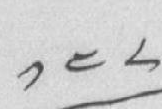༡༤༨
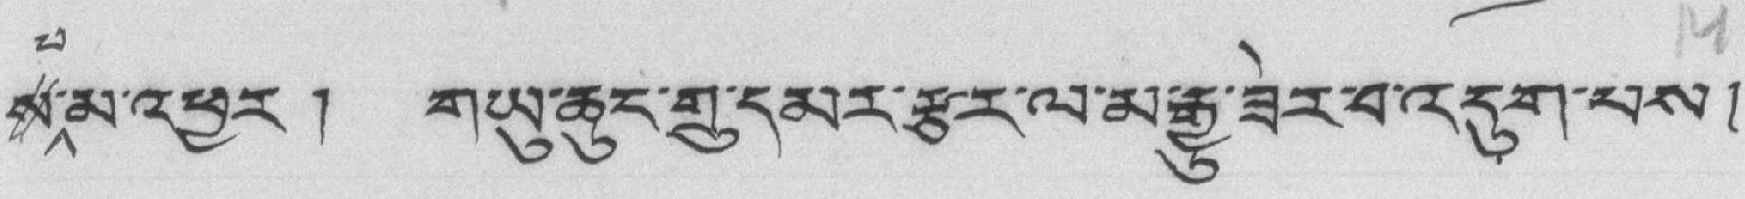སཔ་མ་འཕྱར། གཡུ་ཆུང་གྲུ་དམར་རྩར་ལ་མ་རྒྱུ་ཟེར་བ་འདུག་པས།
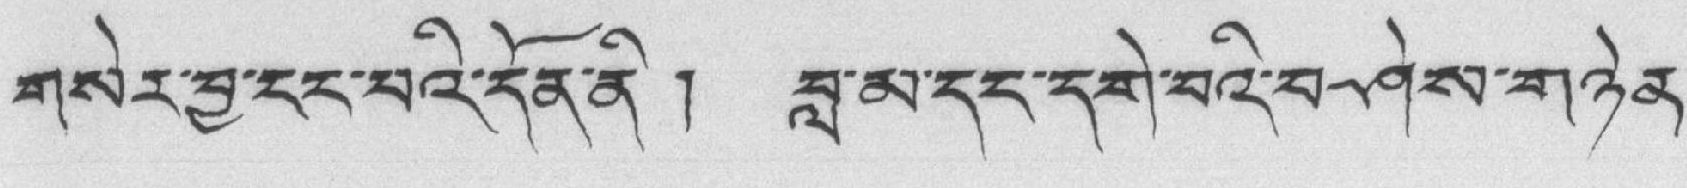གསེར་བྱ་ངང་པའི་དོན་ནི ། བླ་མ་དང་དགེ་བའི་བཤེས་གཉེན་
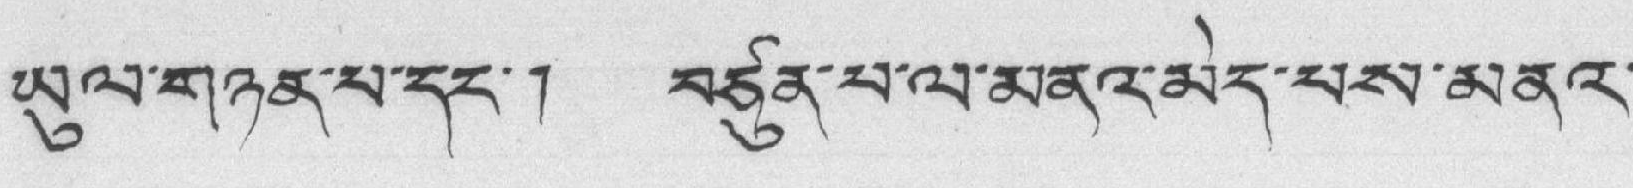ཡུལ་གཉན་པ་དང་། བཙུན་པ་ལ་མནའ་མེད་པས་མནའ་
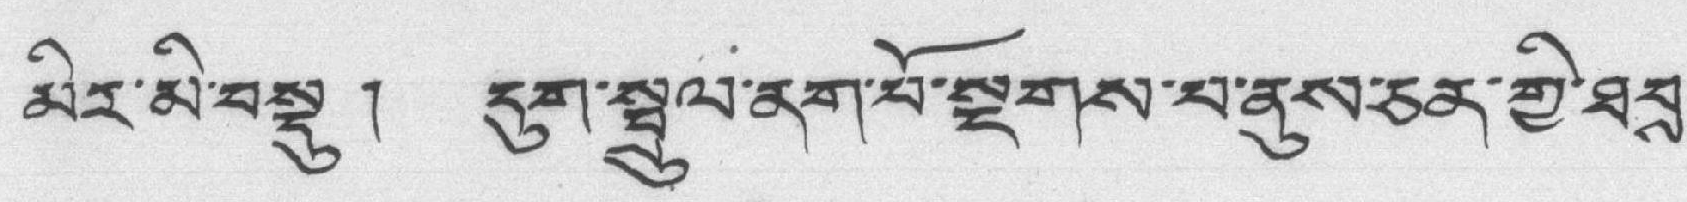མིར་མི་བསྡུ ། དུག་སྦྲུལ་ནག་པོ་སྔགས་པ་ནུས་ཅན་གྱི་ཐབས་
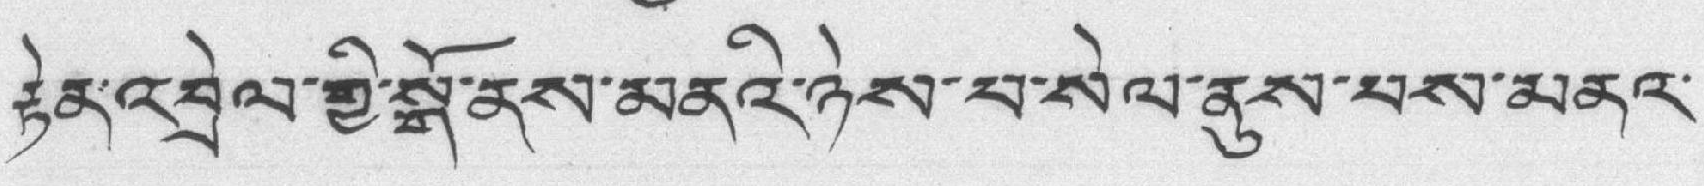རྟེན་འབྲེལ་གྱི་སྒོ་ནས་མནའི་ཉེས་པ་སེལ་ནུས་པས་མནའ་
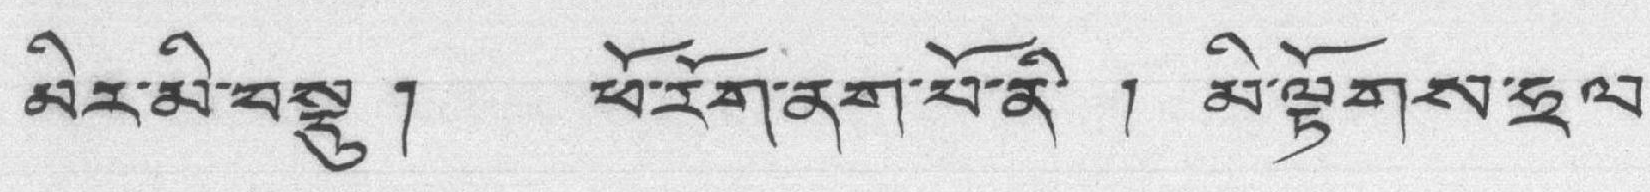མིར་མི་བསྡུ ། ཕོ་རོག་ནག་པོ་ནི་ ། མི་ལྟོགས་ཧྲལ་
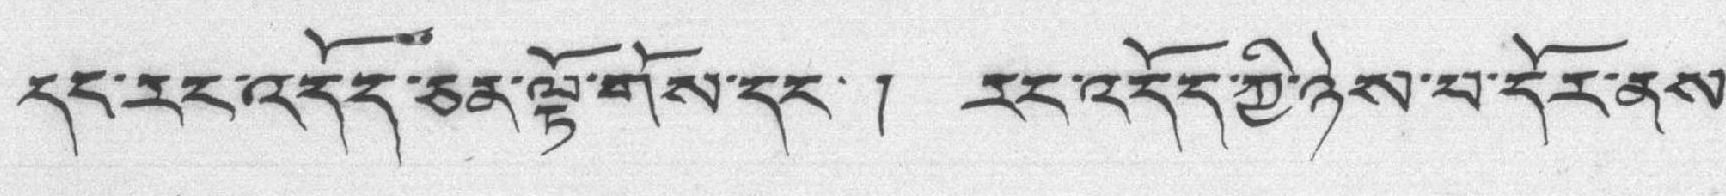དང་རང་འདོད་ཅན་ལྟོ་གོས་དང་། རང་འདོད་ཀྱི་ཉེས་པ་དོར་ནས་
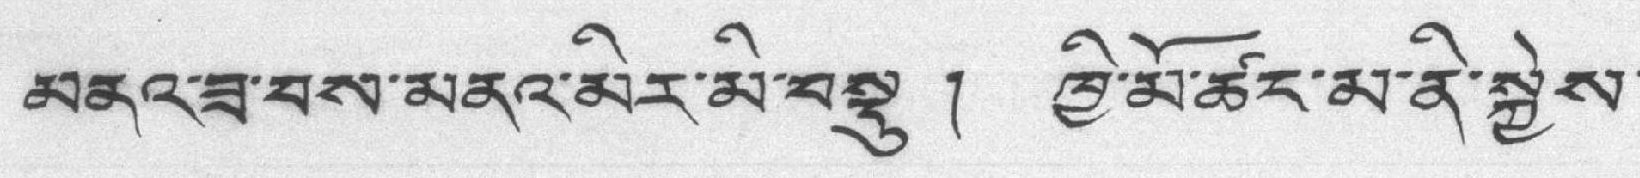མནའ་ཟ་བས་མནའ་མིར་མི་བསྡུ ། ཁྱི་མོ་ཚང་མ་ནི་སྐྱེས་
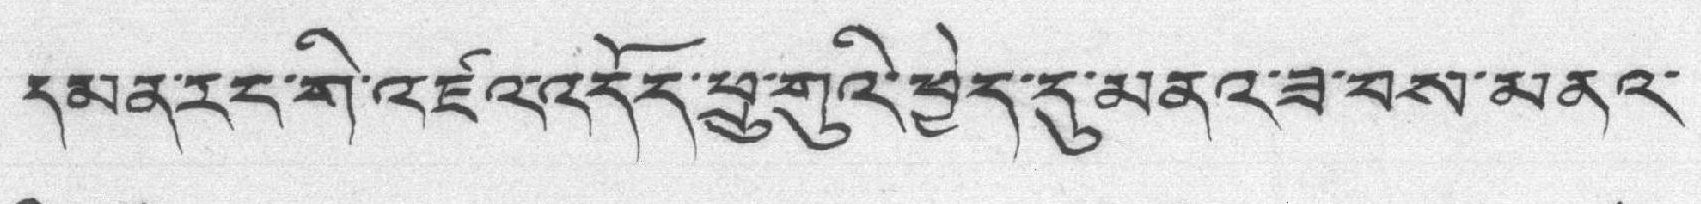དམན་རང་གི་འཛའ་འདོད་ཕྲུ་གུའི་ཕྱེད་དུ་མནའ་ཟ་བས་མནའ་
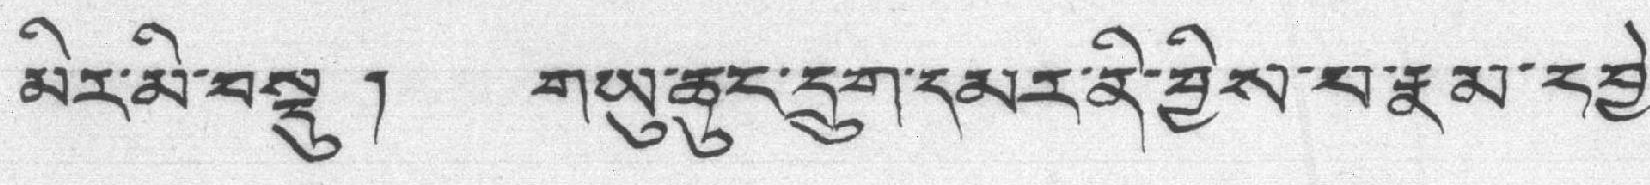མིར་མི་བསྡུ ། གཡུ་ཆུང་དྲུག་དམར་ནི་བྱིས་པ་རྣམ་དབྱེ་
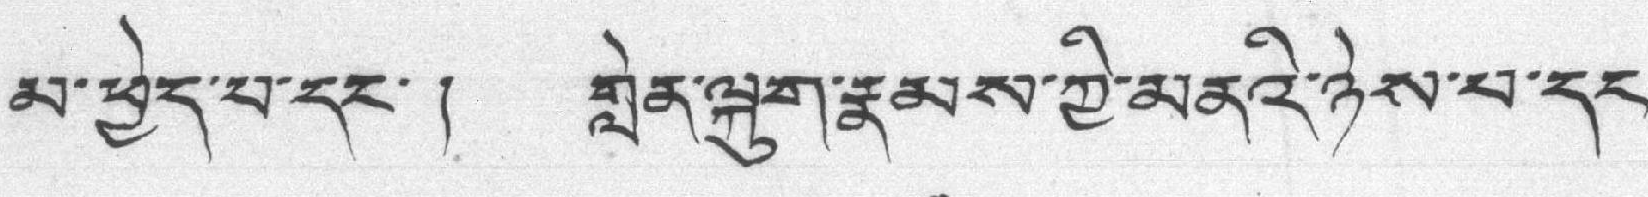མ་ཕྱེད་པ་དང་། གླེན་ལྐུག་རྣམས་ཀྱི་མནའི་ཉེས་པ་དང་
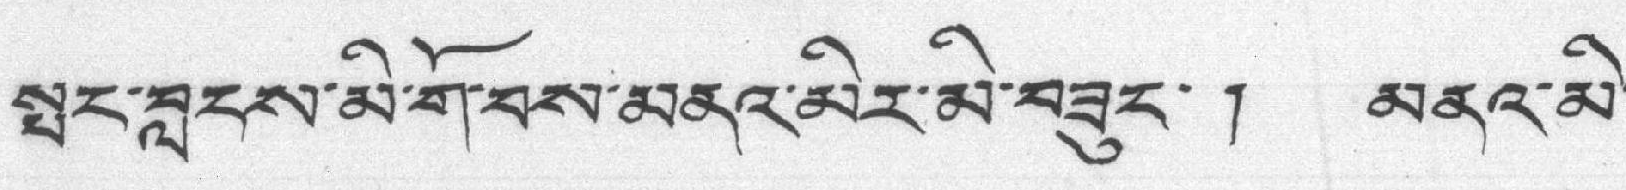སྤང་བླངས་མི་གོ་བས་མནའ་མིར་མི་བཟུང་ ། མནའ་མི་
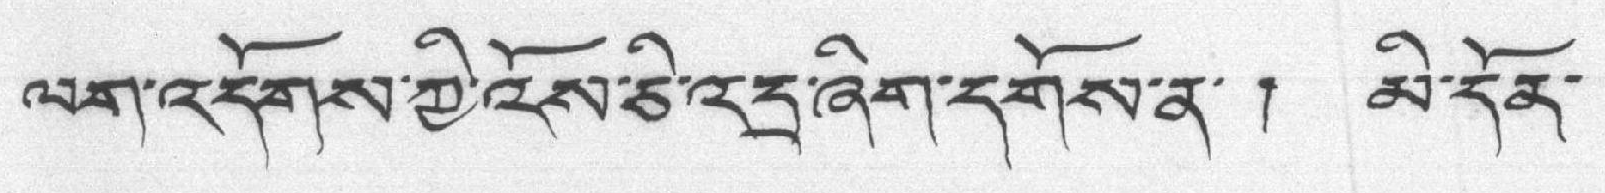ལག་འདོགས་ཀྱི་འོས་ཅི་འདྲ་ཞིག་དགོས་ན་ ། མི་དོན་
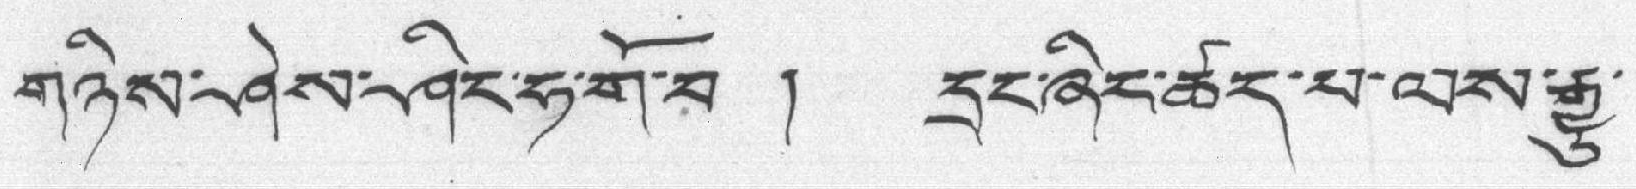གཉིས་ཤེས་ཤིང་ཧ་གོ་བ ། དྲང་ཞིང་ཚད་པ་ལས་རྒྱུ་
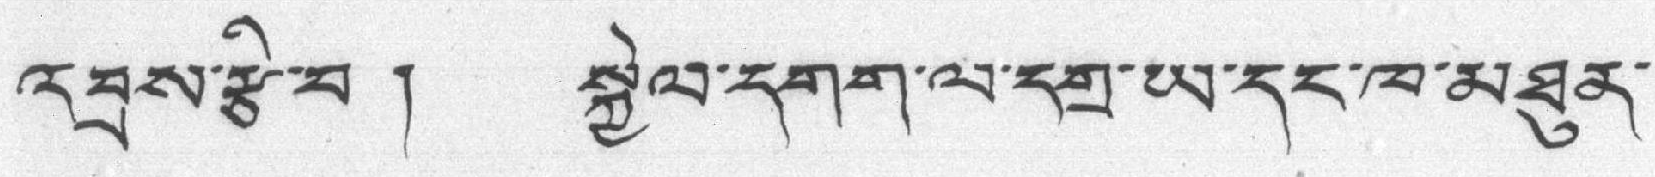འབྲས་རྩི་བ ། སྐྱེལ་དགག་ལ་དགྲ་ཡ་དང་ཁ་མཐུན་
